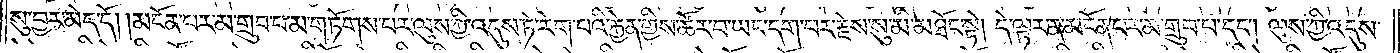སུ་བྱར་མེད་དོ། །མངོན་པར་མ་གྲུབ་པ་མ་གཏོགས་པར་ལུས་ཀྱི་འདུས་ཏེ་རེག་པའི་རྐྱེན་གྱིས་ཚོར་བ་ཡང་དག་པར་རྗེས་སུ་མི་མཐོང་སྟེ། དེ་ལྟར་ན་མངོན་པར་མ་གྲུབ་པ་དང༌། ལུས་ཀྱི་འདུས་
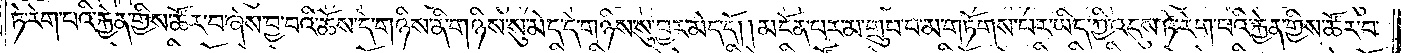ཏེ་རེག་པའི་རྐྱེན་གྱིས་ཚོར་བ་ཞེས་བྱ་བའི་ཆོས་དེ་གཉིས་ནི་གཉིས་སུ་མེད་དེ་གཉིས་སུ་བྱར་མེད་དོ། །མངོན་པར་མ་གྲུབ་པ་མ་གཏོགས་པར་ཡིད་ཀྱི་འདུས་ཏེ་རེག་པའི་རྐྱེན་གྱིས་ཚོར་བ་
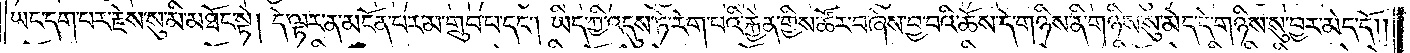ཡང་དག་པར་རྗེས་སུ་མི་མཐོང་སྟེ། དེ་ལྟར་ན་མངོན་པར་མ་གྲུབ་པ་དང༌། ཡིད་ཀྱི་འདུས་ཏེ་རེག་པའི་རྐྱེན་གྱིས་ཚོར་བ་ཞེས་བྱ་བའི་ཆོས་དེ་གཉིས་ནི་གཉིས་སུ་མེད་དེ་གཉིས་སུ་བྱར་མེད་དོ། །
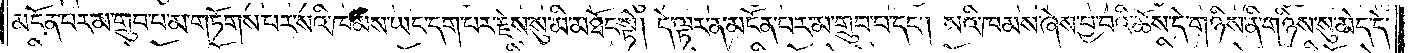མངོན་པར་མ་གྲུབ་པ་མ་གཏོགས་པར་སའི་ཁམས་ཡང་དག་པར་རྗེས་སུ་མི་མཐོང་སྟེ། དེ་ལྟར་ན་མངོན་པར་མ་གྲུབ་པ་དང༌། སའི་ཁམས་ཞེས་བྱ་བའི་ཆོས་དེ་གཉིས་ནི་གཉིས་སུ་མེད་དེ་
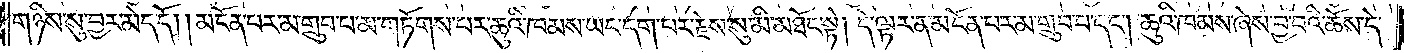གཉིས་སུ་བྱར་མེད་དོ། །མངོན་པར་མ་གྲུབ་པ་མ་གཏོགས་པར་ཆུའི་ཁམས་ཡང་དག་པར་རྗེས་སུ་མི་མཐོང་སྟེ། དེ་ལྟར་ན་མངོན་པར་མ་གྲུབ་པ་དང༌། ཆུའི་ཁམས་ཞེས་བྱ་བའི་ཆོས་དེ་
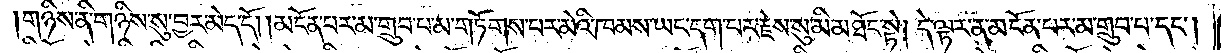གཉིས་ནི་གཉིས་སུ་བྱར་མེད་དོ། །མངོན་པར་མ་གྲུབ་པ་མ་གཏོགས་པར་མེའི་ཁམས་ཡང་དག་པར་རྗེས་སུ་མི་མཐོང་སྟེ། དེ་ལྟར་ན་མངོན་པར་མ་གྲུབ་པ་དང༌།
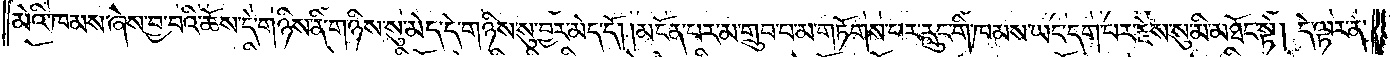མེའི་ཁམས་ཞེས་བྱ་བའི་ཆོས་དེ་གཉིས་ནི་གཉིས་སུ་མེད་དེ་གཉིས་སུ་བྱར་མེད་དོ། །མངོན་པར་མ་གྲུབ་པ་མ་གཏོགས་པར་རླུང་གི་ཁམས་ཡང་དག་པར་རྗེས་སུ་མི་མཐོང་སྟེ། དེ་ལྟར་ན་
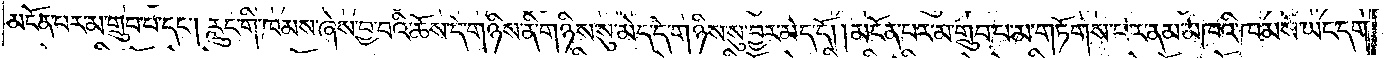མངོན་པར་མ་གྲུབ་པ་དང༌། རླུང་གི་ཁམས་ཞེས་བྱ་བའི་ཆོས་དེ་གཉིས་ནི་གཉིས་སུ་མེད་དེ་གཉིས་སུ་བྱར་མེད་དོ། །མངོན་པར་མ་གྲུབ་པ་མ་གཏོགས་པར་ནམ་མཁའི་ཁམས་ཡང་དག་
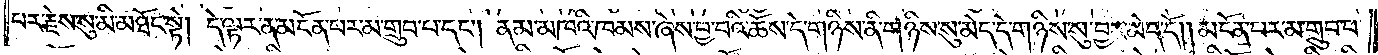པར་རྗེས་སུ་མི་མཐོང་སྟེ། དེ་ལྟར་ན་མངོན་པར་མ་གྲུབ་པ་དང༌། ནམ་མཁའི་ཁམས་ཞེས་བྱ་བའི་ཆོས་དེ་གཉིས་ནི་གཉིས་སུ་མེད་དེ་གཉིས་སུ་བྱར་མེད་དོ། །མངོན་པར་མ་གྲུབ་པ་
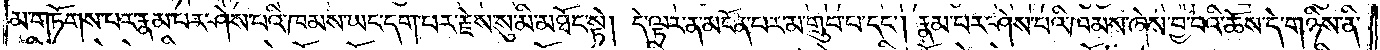མ་གཏོགས་པར་རྣམ་པར་ཤེས་པའི་ཁམས་ཡང་དག་པར་རྗེས་སུ་མི་མཐོང་སྟེ། དེ་ལྟར་ན་མངོན་པར་མ་གྲུབ་པ་དང༌། རྣམ་པར་ཤེས་པའི་ཁམས་ཞེས་བྱ་བའི་ཆོས་དེ་གཉིས་ནི་
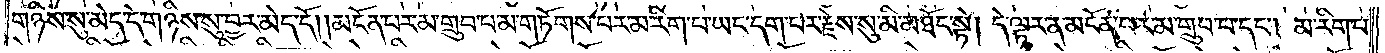གཉིས་སུ་མེད་དེ་གཉིས་སུ་བྱར་མེད་དོ། །མངོན་པར་མ་གྲུབ་པ་མ་གཏོགས་པར་མ་རིག་པ་ཡང་དག་པར་རྗེས་སུ་མི་མཐོང་སྟེ། དེ་ལྟར་ན་མངོན་པར་མ་གྲུབ་པ་དང༌། མ་རིག་པ་
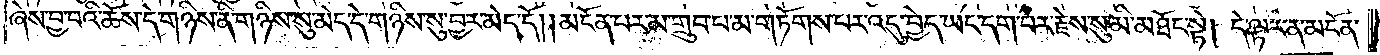ཞེས་བྱ་བའི་ཆོས་དེ་གཉིས་ནི་གཉིས་སུ་མེད་དེ་གཉིས་སུ་བྱར་མེད་དོ། །མངོན་པར་མ་གྲུབ་པ་མ་གཏོགས་པར་འདུ་བྱེད་ཡང་དག་པར་རྗེས་སུ་མི་མཐོང་སྟེ། དེ་ལྟར་ན་མངོན་
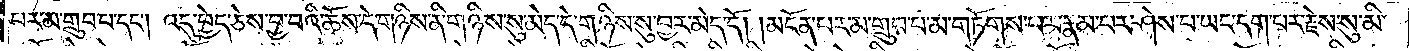པར་མ་གྲུབ་པ་དང༌། འདུ་བྱེད་ཅེས་བྱ་བའི་ཆོས་དེ་གཉིས་ནི་གཉིས་སུ་མེད་དེ་གཉིས་སུ་བྱར་མེད་དོ། །མངོན་པར་མ་གྲུབ་པ་མ་གཏོགས་པར་རྣམ་པར་ཤེས་པ་ཡང་དག་པར་རྗེས་སུ་མི་
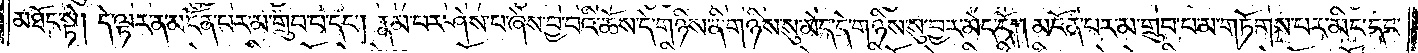མཐོང་སྟེ། དེ་ལྟར་ན་མངོན་པར་མ་གྲུབ་པ་དང༌། རྣམ་པར་ཤེས་པ་ཞེས་བྱ་བའི་ཆོས་དེ་གཉིས་ནི་གཉིས་སུ་མེད་དེ་གཉིས་སུ་བྱར་མེད་དོ། །མངོན་པར་མ་གྲུབ་པ་མ་གཏོགས་པར་མིང་དང་
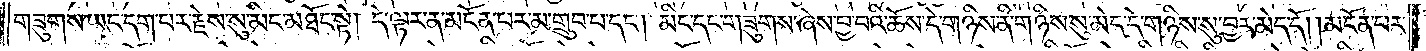གཟུགས་ཡང་དག་པར་རྗེས་སུ་མི་མཐོང་སྟེ། དེ་ལྟར་ན་མངོན་པར་མ་གྲུབ་པ་དང༌། མིང་དང་གཟུགས་ཞེས་བྱ་བའི་ཆོས་དེ་གཉིས་ནི་གཉིས་སུ་མེད་དེ་གཉིས་སུ་བྱར་མེད་དོ། །མངོན་པར་
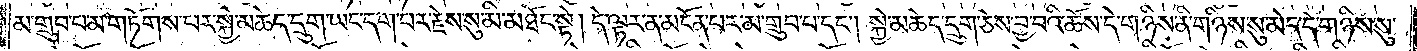མ་གྲུབ་པ་མ་གཏོགས་པར་སྐྱེ་མཆེད་དྲུག་ཡང་དག་པར་རྗེས་སུ་མི་མཐོང་སྟེ། དེ་ལྟར་ན་མངོན་པར་མ་གྲུབ་པ་དང༌། སྐྱེ་མཆེད་དྲུག་ཅེས་བྱ་བའི་ཆོས་དེ་གཉིས་ནི་གཉིས་སུ་མེད་དེ་གཉིས་སུ་
